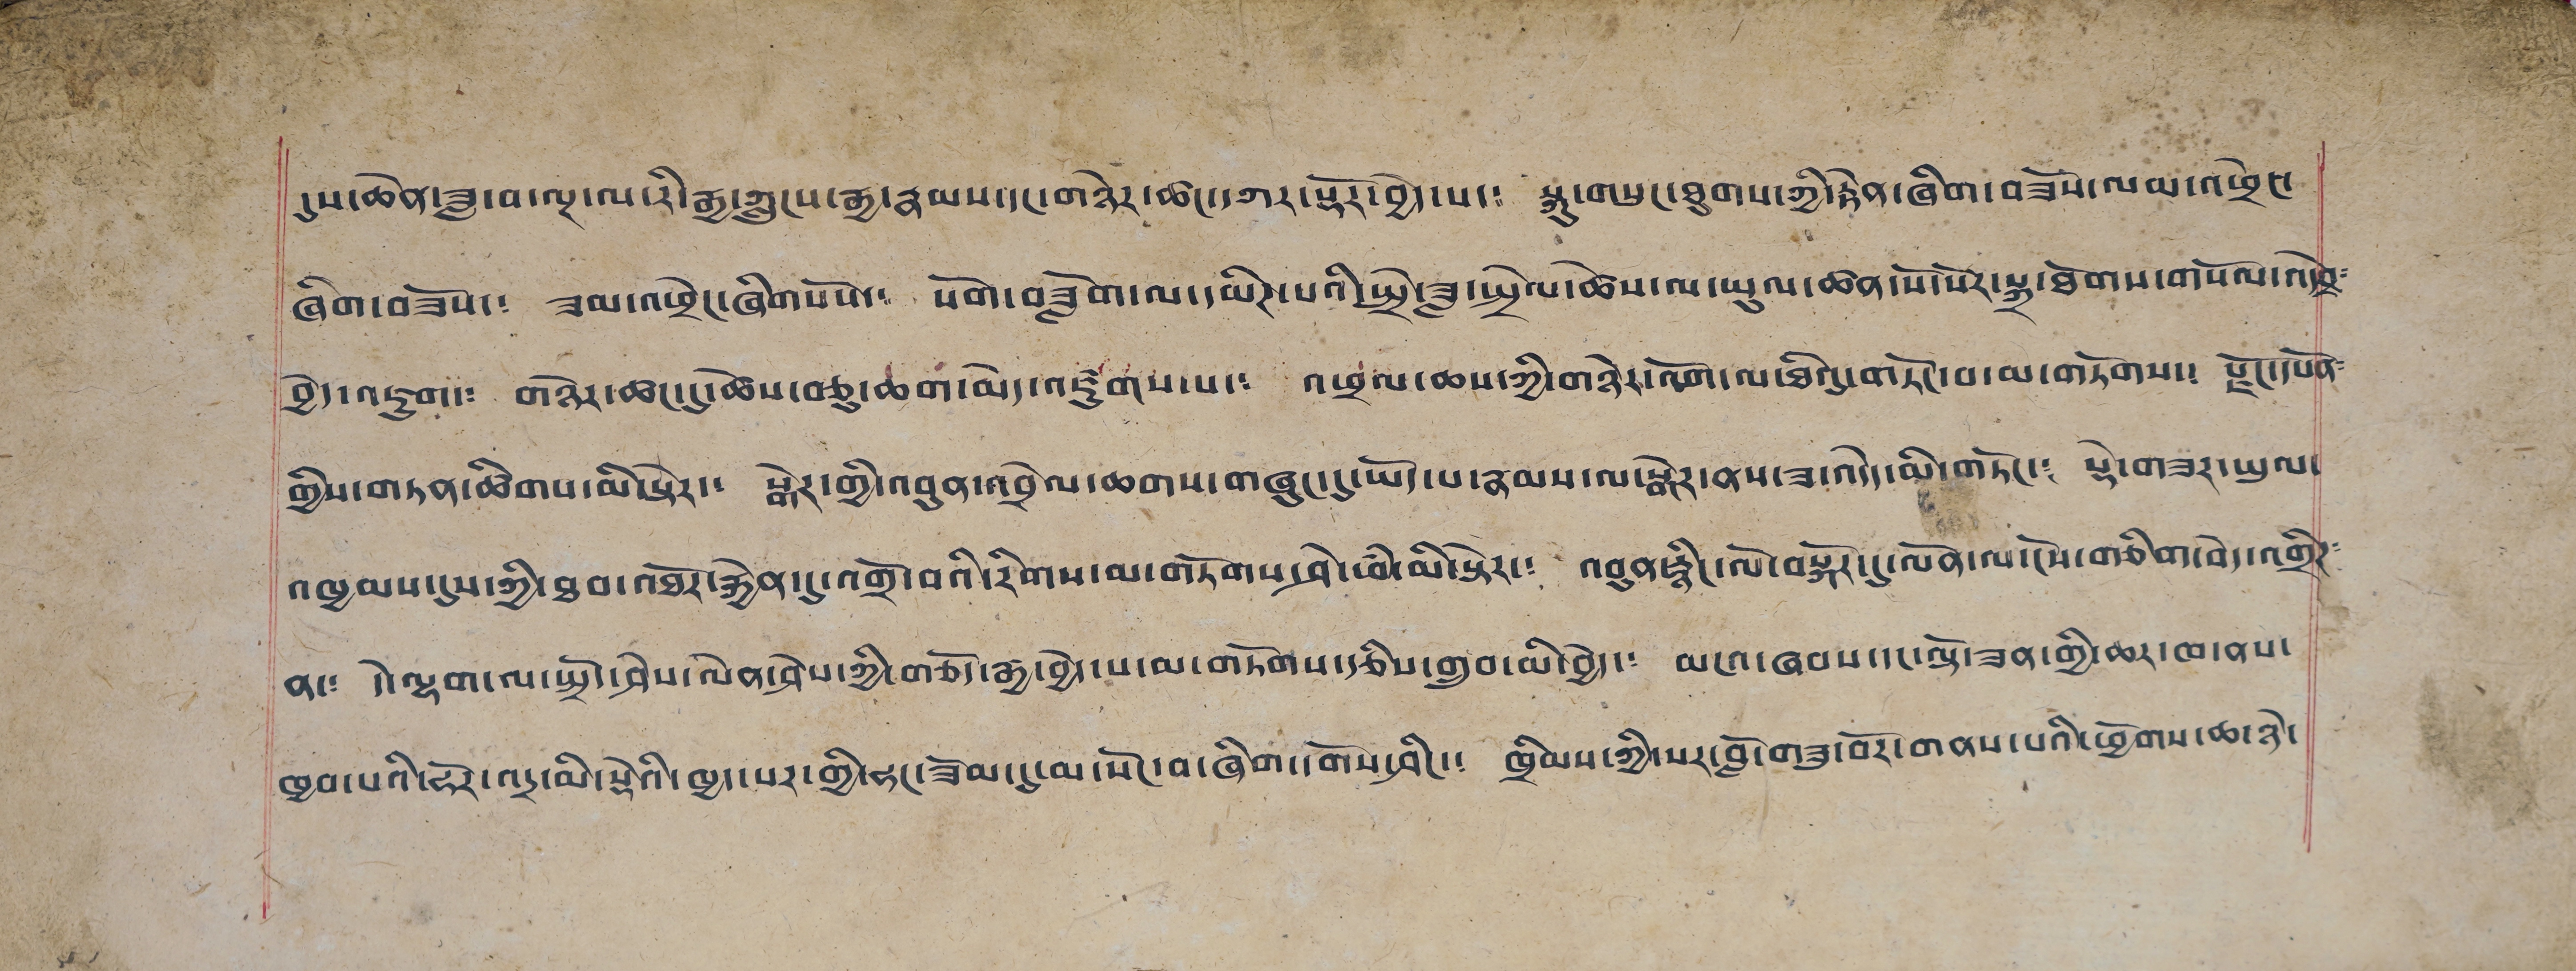དུས་ཆེན་ཟླ་བ་ལྔ་ལ་རི་རྒྱ་ཀླུངས་རྒྱ་རྣམས་དང་གཉེར་ཚང་དཀར་སྟོར་བྱེད་པ་༴ སྐུ་གསུང་ཐུགས་གྱི་རྟེན་ཞིག་བཟོས་ལབ་འཕྲེང་
ཞིག་བཟོས་༴ ཟམ་འཕྲེང་ཞིགས་པོ་༴ སོག་བཟློག་ལ་དམིཊ་པའི་སྤྲེ་ཟླ་སྤྲེལ་ཚེས་ལ་ཡུལ་ཚན་སོ་སོར་སྐྲུ་ཐོགས་གསོལ་འདེབས༴
བྱེད་འཇུག་༴ གཉེར་ཚང་དུ་ཚེས་བཅུ་ཆག་མེད་འཛུགས་པ་༴ འཕྲལ་ཆས་ཀྱི་གཉེར་འོག་ལ་ཐིའུ་གཏོང་བ་མ་གཏོགས་༴ རྫོང་དཔོན༴
གྱིས་གཏན་ཚིགས་མི་སྟེར་༴ སྒེར་གྱི་འབུན་འབྲེལ་ཆགས་གཞུང་དུ་ཡོད་པ་རྣམས་ལ་སྒེར་ནས་ཟ་འདོད་མི་གཏོང་༴ སྡེ་གཟར་ཡུལ་
འཁྱམས་དུས་ཀྱི་ཐབ་འཐོར་རྐྱེན་དུ་འགྲོ་བའི་རིགས་མ་གཏོགས་ཤེ་ཕཾ་མི་སྟེར་༴ འབུན་རྙིང་ལོ་བསྐོར་དུ་ལོན་ལ་ངེས་གཅིག་བེད་འགྲིཊ༴
ན་༴ དེ་ལྷག་ལ་སྤྲོ་ཤེས་ལེན་ཤེས་ཀྱི་གཅོད་རྒྱ་བྱེད་པ་མ་གཏོགས་རྩིས་གྲུབ་མི་བྱེད་༴ མངའ་ཞབས་དང་ལྷོ་ཟན་གྱི་ཆར་ཁ་ནས་
ཁྱབ་པའི་ཧོར་འདྲ་མི་སྡེའི་ཁྱ་པར་གྱི་ཧང་ཟོམ་དུ་མ་སོང་བ་ཞིག་དགོས་ཤིང་༴ ཁྲིསས་ཀྱི་སར་བློ་བཟུ་བོར་གནས་པའི་ཕྱོགས་ཆ་ཉེ་
